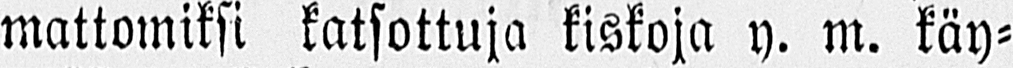mattomiksi katsottuja kiskoja y. m. käy-
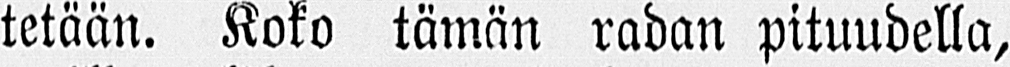tetään. Koko tämän radan pituudella,
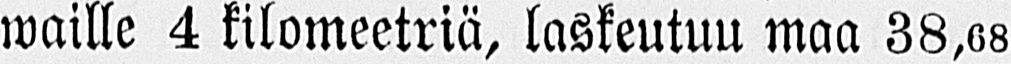waille 4 kilomeetriä, laskeutuu maa 38,68
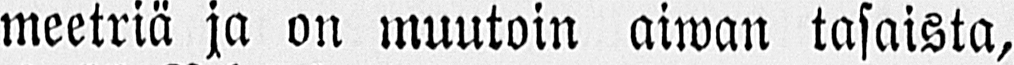meetriä ja on muutoin aiwan tasaista,
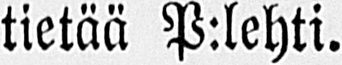tietää P:lehti.
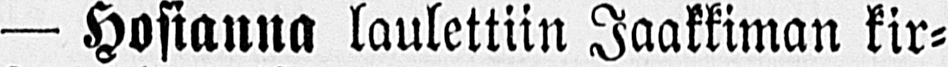— Hosianna laulettiin Jaakkiman kir-
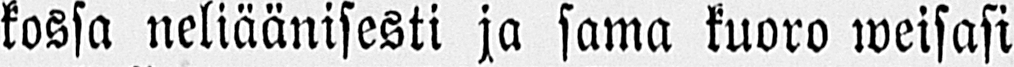kossa neliäänisesti ja sama kuoro weisasi
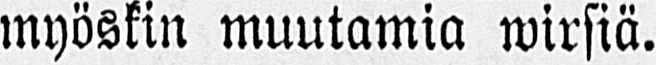myöskin muutamia wirsiä.
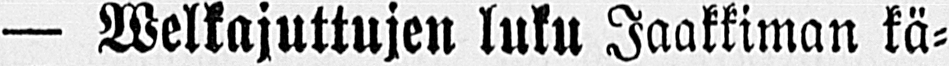— Welkajuttujen luku Jaakkiman kä-
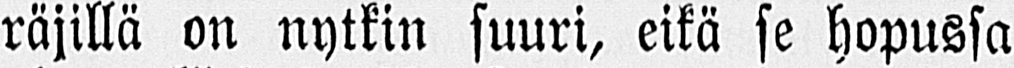räjillä on nytkin suuri, eikä se hopussa
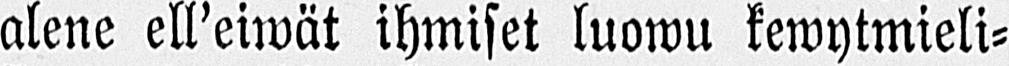alene ell’eiwät ihmiset luowu kewytmieli-
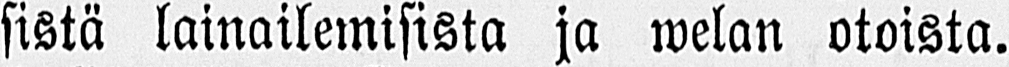sistä lainailemisista ja welan otoista.
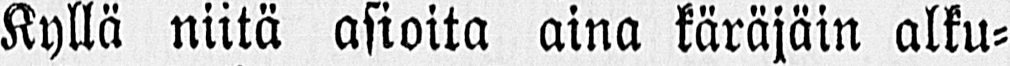Kyllä niitä asioita aina käräjäin alku-
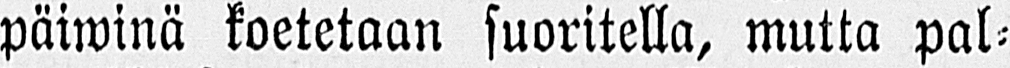päiwinä koetetaan suoritella, mutta pal-
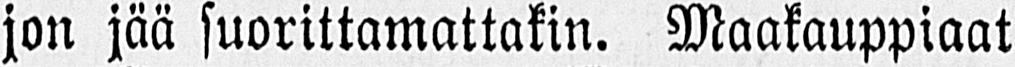jon jää suorittamattakin. Maakauppiaat
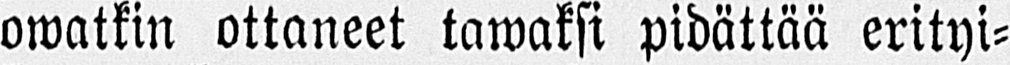owatkin ottaneet tawaksi pidättää erityi-
